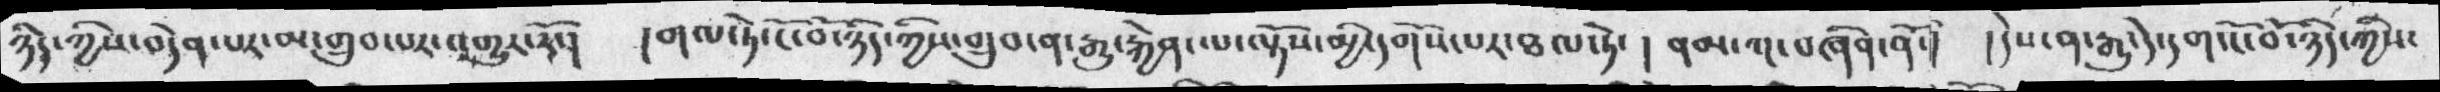ཉིད་ཀྱིས་བདེན་པར་མ་གྲུབ་པར་འགྱུར་རོ་།   །གལ་ཏེ་ངོ་བོ་ཉིད་ཀྱིས་གྲུབ་ན་རྒྱུ་རྐྱེན་ལ་ལྟོས་མྱི་དགོས་པར་ཐལ་ཏེ་ ། ནམ་ག་བཞིན་ནོ་།   ། དེས་ན་རྒུ་དེ་དག་ངོ་བོ་ཉིད་ཀྱིས་
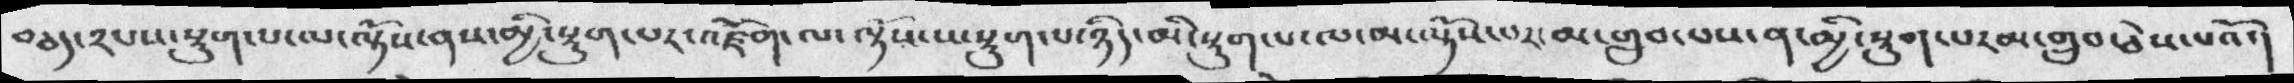བཅད་༢པས་སྡུག་པ་ལ་ལྟོས་ནས་མྱི་སྡུག་པར་འཛོག་ལ་ལྟོས་པ་སྡུག་པ་ཉིད་མི་སྡུག་པ་ལ་མ་ལྟོས་པར་མ་གྲུབ་པས་ན་མྱི་སྡུག་པར་མ་གྲུབ་ཅེས་པའོ་།
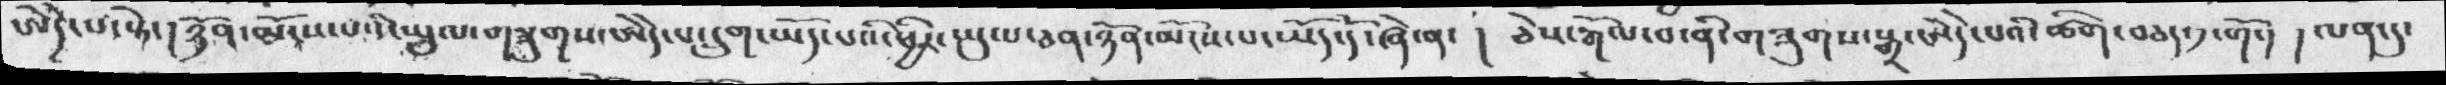ཨེདེ་པ་སྟེ་། ཉོན་མོངས་པའི་སྤྲུལ་གཟུགས་ཨེདེ་པ་དྲུག་ཡོད་པའི་ཕྱིར་ཡུལ་ཅན་ཉོན་མོངས་པ་ཡོད་དོ་ཞེ་ན་ ། ཅེས་རྒོལ་བ་ནི་གཟུགས་སྒྲ་ཨེདེ་པའི་ཚིག་བཅད་༡་གོ་།  ། ལན་དུ་
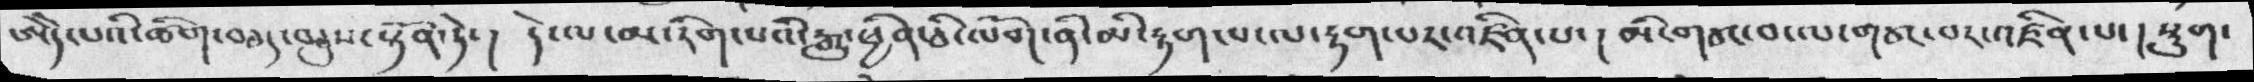ཨེདེ་པའི་ཚིག་བཅད་བཅུས་སྟོན་ཏེ་།  དེ་ལ་མ་རིག་པའི་རྒྱུ་ཕྱིན་ཅི་ལོག་ནི་མི་རྟག་པ་ལ་རྟག་པར་འཛིན་པ་ ། མི་གཙང་བ་ལ་གཙང་པར་འཛིན་པ་ ། སྡུག་
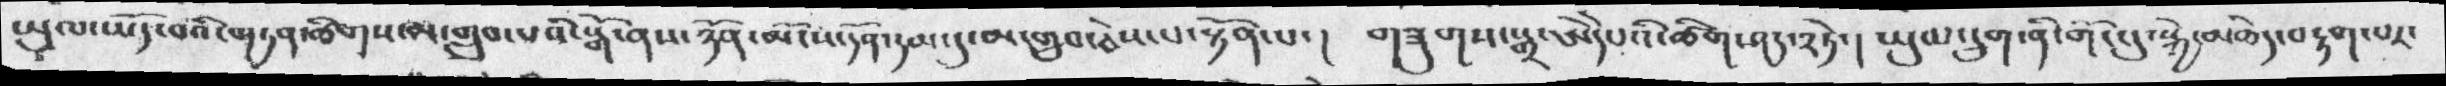ཡུལ་ཡོད་བའི་གཏན་ཚིགས་མ་གྲུབ་པའི་སྒོ་ནས་ཉོན་མོངས་དོན་དམ་དུ་མ་གྲུབ་ཅེས་པ་སྟོན་པ་།  གཟུགས་སྒྲ་ཨེདེཔའི་ཚིག་ཤད་༢ཏེ་།  ཡུལ་དྲུག་ནི་གོང་དུ་སྐྱེ་མཆེད་བརྟག་པར་
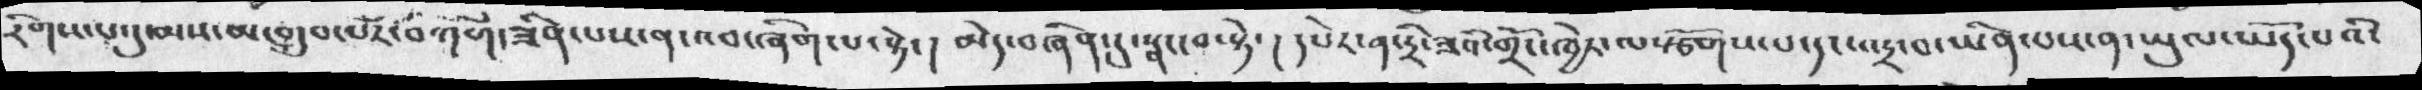རིགས་པ་དུ་མས་མ་གྲུབ་པར་བཀག་ཟིན་པས་ན་འབ་ཞིག་པ་སྟེ་།  མེད་བཞིན་དུ་སྣང་བ་སྟེ་ ། དཔེར་ན་དྲི་ཟའི་གྲོང་ཁྱེར་ལསྩོགས་པ་དང་འདྲ་བ་ཡིན་པས་ན་ཡུལ་ཡོད་པའི་
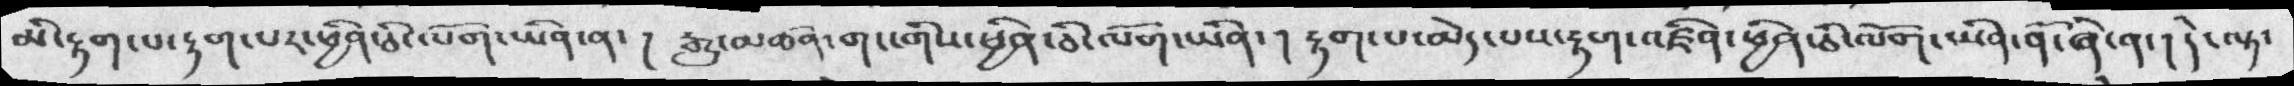མི་རྟག་པ་རྟག་པར་ཕྱིན་ཅི་ལོག་ཡིན་ན་ ། རྒྱུ་མཚན་གང་གིས་ཕྱིན་ཅི་ལོག་ཡིན་ ། རྟག་པ་མེད་པས་རྟག་འཛིན་ཕྱིན་ཅི་ལོག་ཡིན་ནོ་ཞེ་ན་།  དེ་ལྟ་
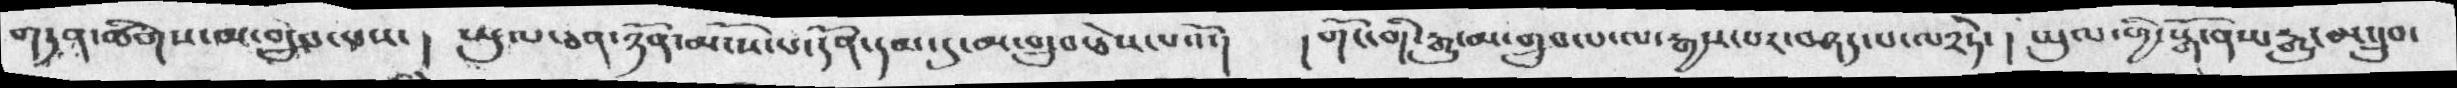གཏན་ཚིགས་མ་གྲུབ་པས་།   ཡུལ་ཅན་ཉོན་མོངས་པ་དོན་དམ་དུ་མ་གྲུབ་ཅེས་པའོ་།   ། གོང་གི་རྒྱུ་མ་གྲུབ་པ་ལ་རྒྱས་པར་བཤད་པ་ལ༢ཏེ་ ། ཡུལ་གྱི་སྒོ་ནས་རྒྱུ་མ་གྲུབ་
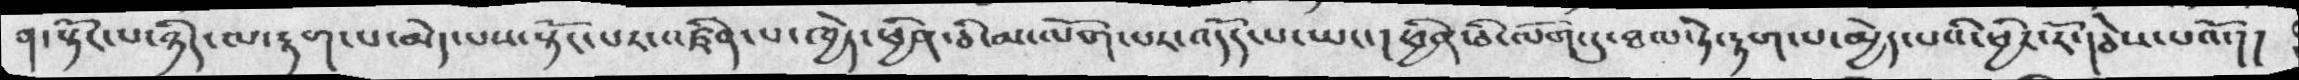ན་སྟོང་པ་ཉིད་ལ་རྟག་པ་མེད་པས་སྟོང་པར་འཛིན་པ་ཁྱེད་ཕྱིན་ཅི་མ་ལོག་པར་འདོད་པ་ཡང་།   ཕྱིན་ཅི་ལོག་དུ་ཐལ་ཏེ་རྟག་པ་མྱེད་པའི་ཕྱིར་རོ་། ཅེས་པའོ་།།
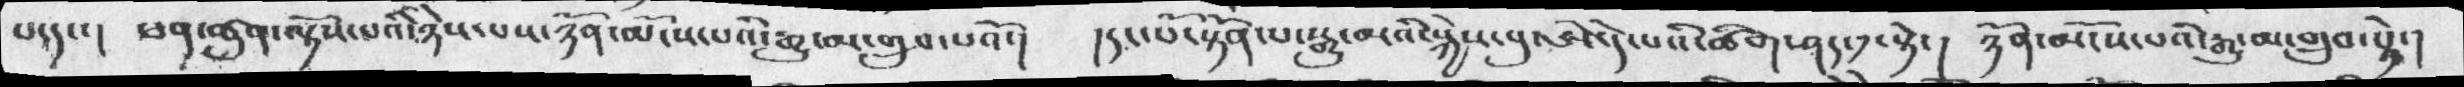པ་དང་།  ཕན་ཚུན་ལྟོས་པའི་ཉེས་པས་ཉོན་མོངས་པའི་རྒྱུ་མ་གྲུབ་པའོ་།   །དང་པོ་སྟོན་པ་སྒྱུ་མའི་སྐྱེས་བུ་ཨེ་དེ་པའི་ཚིག་ཤད་༡་སྟེ་།  ཉོན་མོངས་པའི་རྒྱུ་མ་གྲུབ་སྟེ་།
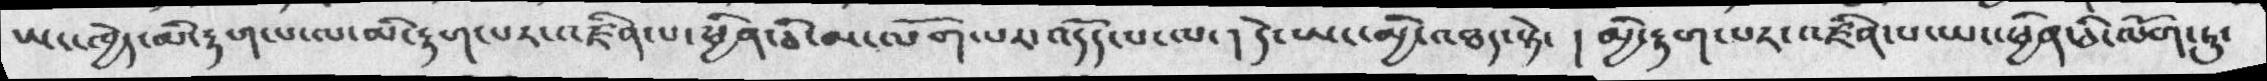ཡང་ཁྱེད་མི་རྟག་པ་ལས་མི་རྟག་པར་འཛིན་པ་ཕྱིན་ཅི་མ་ལོག་པར་འདོད་པ་ལ་།  དེ་ཡང་མྱི་འཐད་སྟེ་   ། མྱི་རྟག་པར་འཛིན་པ་ཡང་ཕྱིན་ཅི་ལོག་ཏུ་
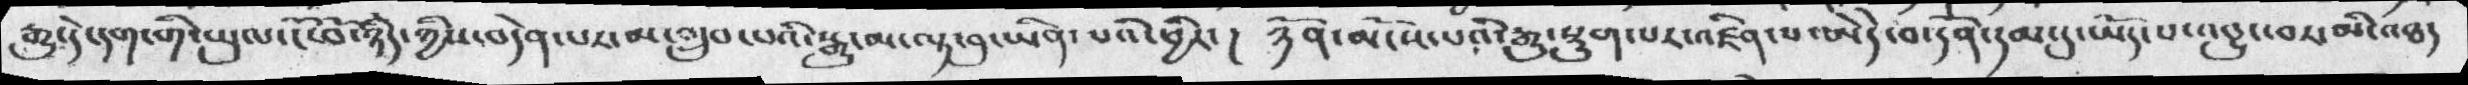རྒྱུ་དེ་དག་གི་ཡུལ་ངོ་བོ་ཉིད་ཀྱིས་བདེན་པར་མ་གྲུབ་པའི་སྒྱུ་མ་ལྟ་བུ་ཡིན་པའི་ཕྱིར་  ། ཉོན་མོངས་པའི་རྒྱུ་སྡུག་པར་འཛིན་པ་ཨེདེ་བ་དོན་དམ་དུ་ཡོད་པ་འབྱུང་བར་མི་འཐད་
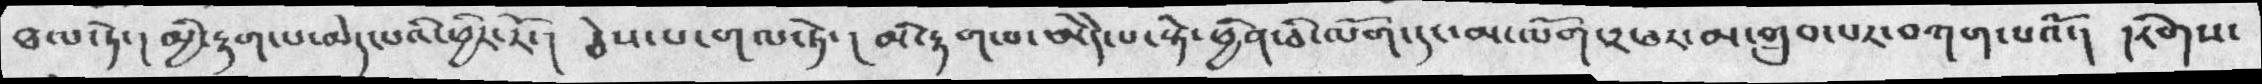ཐལ་ཏེ་། མྱི་རྟག་པ་མེད་པའི་ཕྱིར་རོ་ ། ཅེས་པ་གལ་ཏེ་ ། མི་རྟག་པ་ཨེདེ་པ་སྟེ་ཕྱིན་ཅི་ལོག་དང་མ་ལོག་༢་བར་མ་གྲུ་བ་པར་བཀག་པའོ་།  །རིགས་
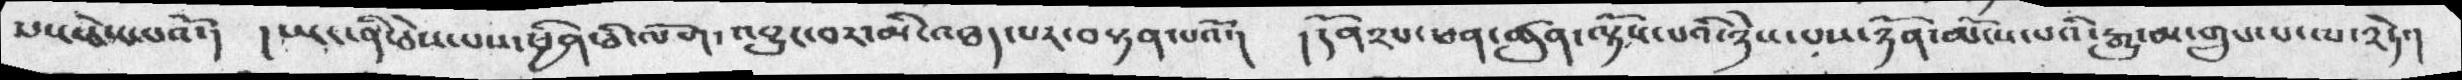པས་ཅེས་པའོ་།  །ཡང་ནི་ཅེས་པས་ཕྱིན་ཅི་ལོག་འབྱུང་བར་མི་འཐད་པར་བསྟན་པའོ་།  །དོན༢པ་ཕན་ཚུན་ལྟོས་པའི་ཉེས་པས་ཉོན་མོངས་པའི་རྒྱུ་མ་གྲུབ་པ་ལ༢ཏེ་།
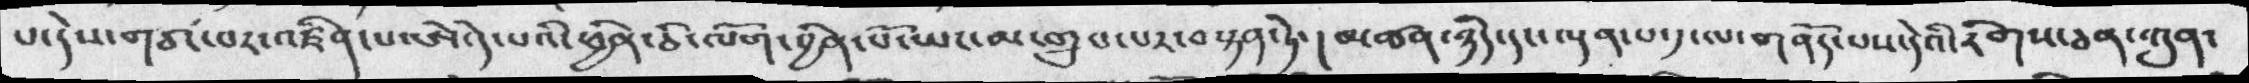པ་དེས་གཙང་པར་འཛིན་པ་ཨེ་དེ་པའི་ཕྱིན་ཅི་ལོག་བྱིན་པོ་ཡང་མ་གྲུབ་པར་བསྟན་ཏེ་ ། མཚན་ཉིད་དང་ལྡན་པ་༡་ལ་གནོད་པས་དེའི་རིགས་ཅན་ཀུན་
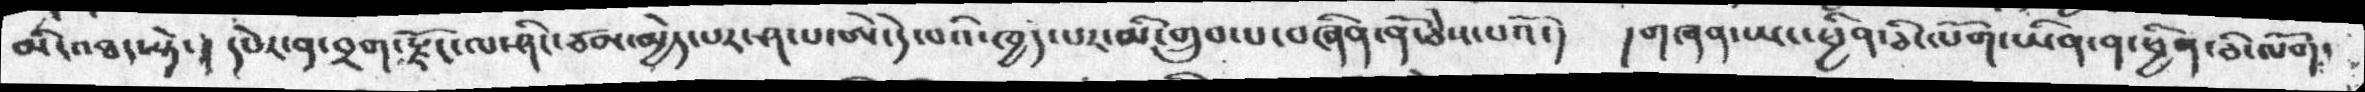མི་འཐད་སྟེ་།  དཔེར་ན་བྲག་རྫོང་ལ་ཤིང་ཙམ་མྱེད་པར་ཤ་པ་ཨེ་དེ་པའི་ཁྱད་པར་མི་གྲུབ་པ་བཞིན་ནོ་ཅེས་པའོ་།  །གཞན་ཡང་ཕྱིན་ཅི་ལོག་ཡིན་ན་ཕྱིན་ཅི་ལོག་
